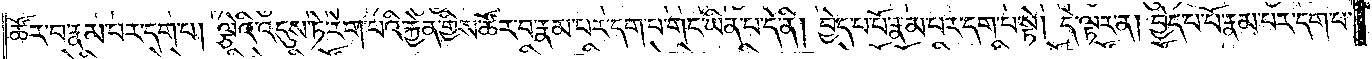ཚོར་བ་རྣམ་པར་དག་པ། ལྕེའི་འདུས་ཏེ་རེག་པའི་རྐྱེན་གྱིས་ཚོར་བ་རྣམ་པར་དག་པ་གང་ཡིན་པ་དེ་ནི། བྱེད་པ་པོ་རྣམ་པར་དག་པ་སྟེ། དེ་ལྟར་ན། བྱེད་པ་པོ་རྣམ་པར་དག་པ་
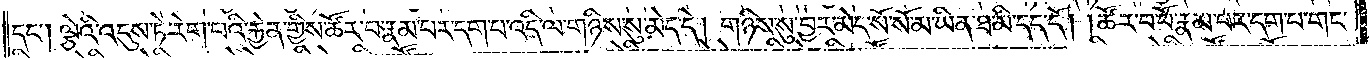དང༌། ལྕེའི་འདུས་ཏེ་རེག་པའི་རྐྱེན་གྱིས་ཚོར་བ་རྣམ་པར་དག་པ་འདི་ལ་གཉིས་སུ་མེད་དེ། གཉིས་སུ་བྱར་མེད་སོ་སོ་མ་ཡིན་ཐ་མི་དད་དོ། །ཚོར་བ་པོ་རྣམ་པར་དག་པ་གང་
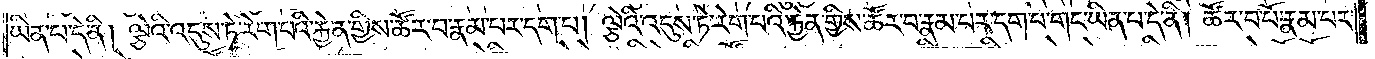ཡིན་པ་དེ་ནི། ལྕེའི་འདུས་ཏེ་རེག་པའི་རྐྱེན་གྱིས་ཚོར་བ་རྣམ་པར་དག་པ། ལྕེའི་འདུས་ཏེ་རེག་པའི་རྐྱེན་གྱིས་ཚོར་བ་རྣམ་པར་དག་པ་གང་ཡིན་པ་དེ་ནི། ཚོར་བ་པོ་རྣམ་པར་
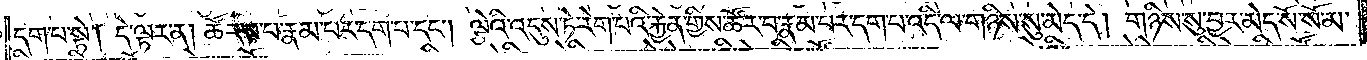དག་པ་སྟེ། དེ་ལྟར་ན། ཚོར་བ་པོ་རྣམ་པར་དག་པ་དང༌། ལྕེའི་འདུས་ཏེ་རེག་པའི་རྐྱེན་གྱིས་ཚོར་བ་རྣམ་པར་དག་པ་འདི་ལ་གཉིས་སུ་མེད་དེ། གཉིས་སུ་བྱར་མེད་སོ་སོ་མ་
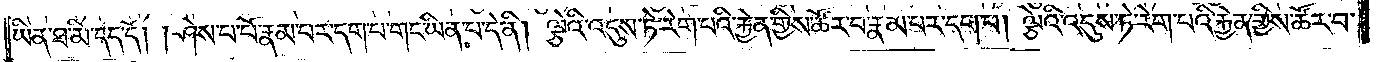ཡིན་ཐ་མི་དད་དོ། །ཤེས་པ་པོ་རྣམ་པར་དག་པ་གང་ཡིན་པ་དེ་ནི། ལྕེའི་འདུས་ཏེ་རེག་པའི་རྐྱེན་གྱིས་ཚོར་བ་རྣམ་པར་དག་པ། ལྕེའི་འདུས་ཏེ་རེག་པའི་རྐྱེན་གྱིས་ཚོར་བ་
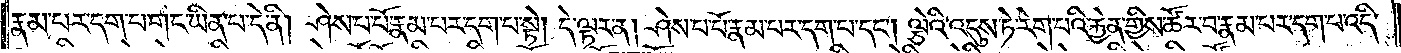རྣམ་པར་དག་པ་གང་ཡིན་པ་དེ་ནི། ཤེས་པ་པོ་རྣམ་པར་དག་པ་སྟེ། དེ་ལྟར་ན། ཤེས་པ་པོ་རྣམ་པར་དག་པ་དང༌། ལྕེའི་འདུས་ཏེ་རེག་པའི་རྐྱེན་གྱིས་ཚོར་བ་རྣམ་པར་དག་པ་འདི་
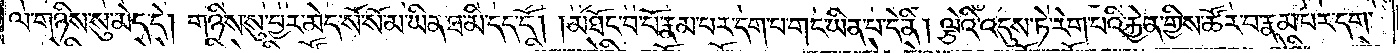ལ་གཉིས་སུ་མེད་དེ། གཉིས་སུ་བྱར་མེད་སོ་སོ་མ་ཡིན་ཐ་མི་དད་དོ། །མཐོང་བ་པོ་རྣམ་པར་དག་པ་གང་ཡིན་པ་དེ་ནི། ལྕེའི་འདུས་ཏེ་རེག་པའི་རྐྱེན་གྱིས་ཚོར་བ་རྣམ་པར་དག་
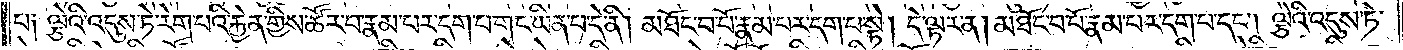པ༑ ལྕེའི་འདུས་ཏེ་རེག་པའི་རྐྱེན་གྱིས་ཚོར་བ་རྣམ་པར་དག་པ་གང་ཡིན་པ་དེ་ནི། མཐོང་བ་པོ་རྣམ་པར་དག་པ་སྟེ། དེ་ལྟར་ན། མཐོང་བ་པོ་རྣམ་པར་དག་པ་དང༌། ལྕེའི་འདུས་ཏེ་
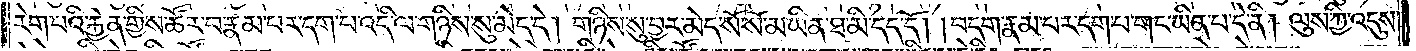རེག་པའི་རྐྱེན་གྱིས་ཚོར་བ་རྣམ་པར་དག་པ་འདི་ལ་གཉིས་སུ་མེད་དེ། གཉིས་སུ་བྱར་མེད་སོ་སོ་མ་ཡིན་ཐ་མི་དད་དོ། །བདག་རྣམ་པར་དག་པ་གང་ཡིན་པ་དེ་ནི། ལུས་ཀྱི་འདུས་
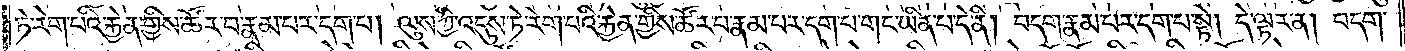ཏེ་རེག་པའི་རྐྱེན་གྱིས་ཚོར་བ་རྣམ་པར་དག་པ། ལུས་ཀྱི་འདུས་ཏེ་རེག་པའི་རྐྱེན་གྱིས་ཚོར་བ་རྣམ་པར་དག་པ་གང་ཡིན་པ་དེ་ནི། བདག་རྣམ་པར་དག་པ་སྟེ། དེ་ལྟར་ན། བདག་
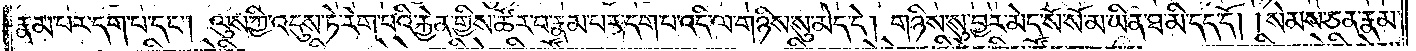རྣམ་པར་དག་པ་དང༌། ལུས་ཀྱི་འདུས་ཏེ་རེག་པའི་རྐྱེན་གྱིས་ཚོར་བ་རྣམ་པར་དག་པ་འདི་ལ་གཉིས་སུ་མེད་དེ། གཉིས་སུ་བྱར་མེད་སོ་སོ་མ་ཡིན་ཐ་མི་དད་དོ། །སེམས་ཅན་རྣམ་
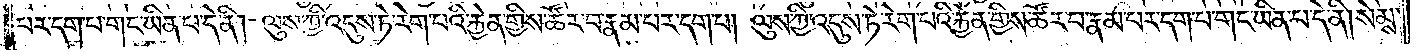པར་དག་པ་གང་ཡིན་པ་དེ་ནི། ལུས་ཀྱི་འདུས་ཏེ་རེག་པའི་རྐྱེན་གྱིས་ཚོར་བ་རྣམ་པར་དག་པ། ལུས་ཀྱི་འདུས་ཏེ་རེག་པའི་རྐྱེན་གྱིས་ཚོར་བ་རྣམ་པར་དག་པ་གང་ཡིན་པ་དེ་ནི། སེམས་
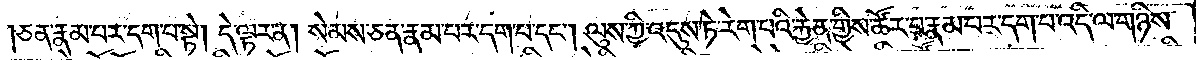ཅན་རྣམ་པར་དག་པ་སྟེ། དེ་ལྟར་ན། སེམས་ཅན་རྣམ་པར་དག་པ་དང༌། ལུས་ཀྱི་འདུས་ཏེ་རེག་པའི་རྐྱེན་གྱིས་ཚོར་བ་རྣམ་པར་དག་པ་འདི་ལ་གཉིས་
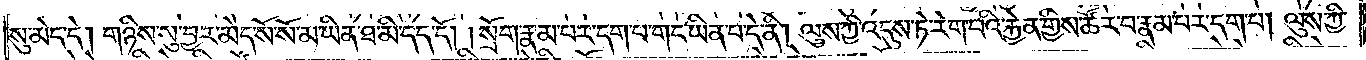སུ་མེད་དེ། གཉིས་སུ་བྱར་མེད་སོ་སོ་མ་ཡིན་ཐ་མི་དད་དོ། །སྲོག་རྣམ་པར་དག་པ་གང་ཡིན་པ་དེ་ནི། ལུས་ཀྱི་འདུས་ཏེ་རེག་པའི་རྐྱེན་གྱིས་ཚོར་བ་རྣམ་པར་དག་པ། ལུས་ཀྱི་
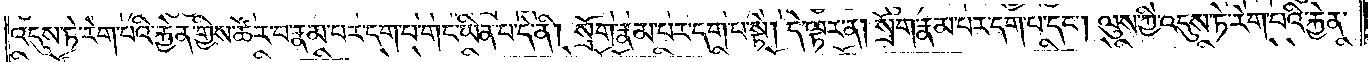འདུས་ཏེ་རེག་པའི་རྐྱེན་གྱིས་ཚོར་བ་རྣམ་པར་དག་པ་གང་ཡིན་པ་དེ་ནི། སྲོག་རྣམ་པར་དག་པ་སྟེ། དེ་ལྟར་ན། སྲོག་རྣམ་པར་དག་པ་དང༌། ལུས་ཀྱི་འདུས་ཏེ་རེག་པའི་རྐྱེན་
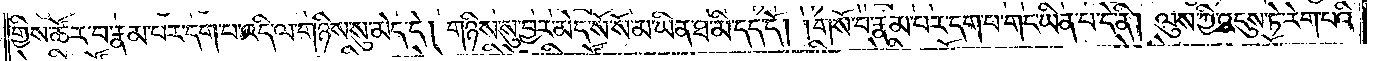གྱིས་ཚོར་བ་རྣམ་པར་དག་པ་འདི་ལ་གཉིས་སུ་མེད་དེ། གཉིས་སུ་བྱར་མེད་སོ་སོ་མ་ཡིན་ཐ་མི་དད་དོ། །གསོ་བ་རྣམ་པར་དག་པ་གང་ཡིན་པ་དེ་ནི། ལུས་ཀྱི་འདུས་ཏེ་རེག་པའི་
